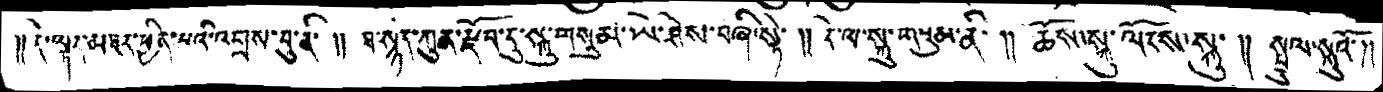།།དེ་ལྟར་མཐར་ཕྱིན་པའི་འབྲས་བུ་ནི་།།  ཐ་སྙད་ཀུན་རྫོབ་དུ་སྐུ་གསུམ་ཡེ་ཤེས་བཞི་སྟེ་།། དེ་ལ་སྐུ་གསུམ་ནི་།།  ཆོས་སྐུ་ལོངས་སྐུ་།། སྤྲུལ་སྐུའོ།།
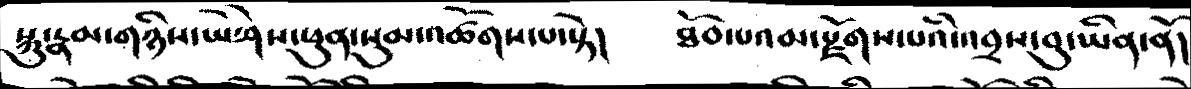སྐུ་རྣམ་གཉིས་ཡེ་ཤེས་ཕུན་སུམ་འཚོགས་པ་སྟེ།   ཐོབ་པའམ་རྫོགས་པའི་འབྲས་བུ་ཡིན་ནོ།
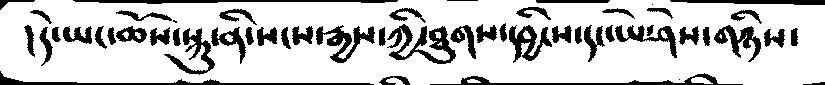།དེ་ཡང་ཆོས་སྐུ་ནི་སངས་རྒྱས་ཀྱི་ཐུགས་དབྱིངས་དང་ཡེ་ཤེས་གཉིས་
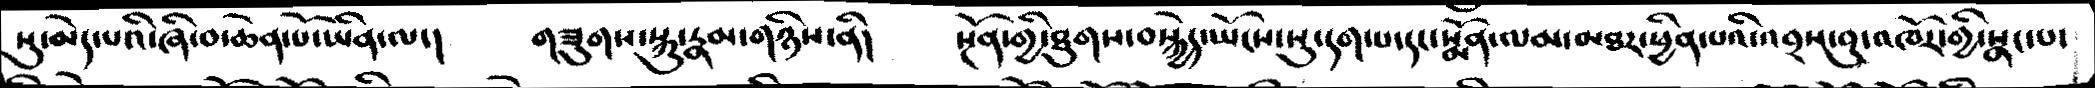སུ་མེད་པའི་ཞི་བ་ཆེན་པོ་ཡིན་ལ་།   གཟུགས་སྐུ་རྣམ་གཉིས་ནི།   སྔོན་གྱི་ཐུགས་བསྐྱེད་ཡོངས་སུ་དག་པ་དང་སྨོན་ལམ་མཐར་ཕྱིན་པའི་འབྲས་བུ་འཁོར་གྱི་སྣང་པ་
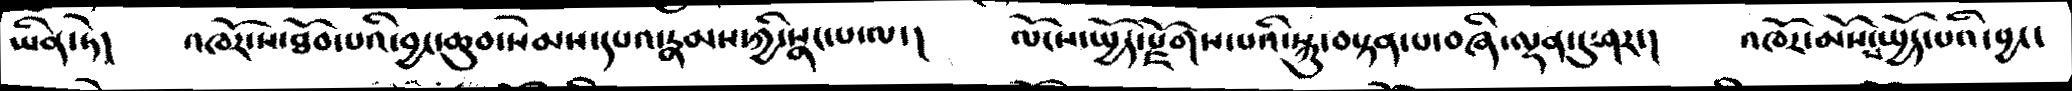ཡིན་ཏེ།   འཁོར་ས་ཐོབ་པའི་བྱང་ཆུབ་སེམས་དཔའ་རྣམས་ཀྱི་སྣང་པ་ལ་།   ལོངས་སྤྱོད་རྫོགས་པའི་སྐུ་བསྟན་པ་བཞི་ལྡན་དུ་ཤར་།   འཁོར་མོས་པ་སྤྱོད་པའི་བྱང་
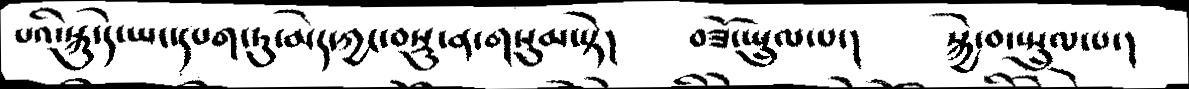པའི་སྐུ་དེ་ཡང་དཔག་ཏུ་མེད་ཀྱང་བསྡུ་ན་གསུམ་སྟེ།   བཟོ་སྤྲུལ་པ་།   སྐྱེ་བ་སྤྲུལ་པ་།
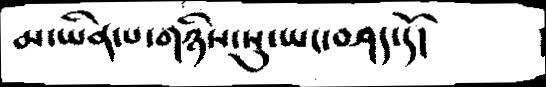མ་ཡིན་པ་གཉིས་སུ་ཡང་བཤད་དོ།
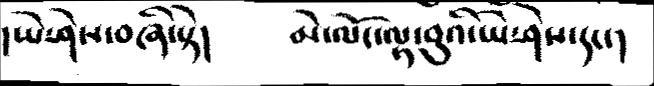།ཡེ་ཤེས་བཞི་སྟེ།   མེ་ལོང་ལྟ་བུའི་ཡེ་ཤེས་དང་།
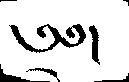༄༅།
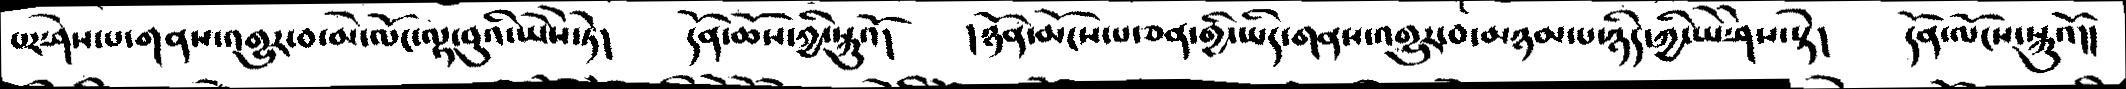པར་ཤེས་པ་གནས་འགྱུར་བ་མེ་ལོང་ལྟ་བུའི་ཡཻས་ཏེ།   དོན་ཆོས་ཀྱི་སྐུའོ།   །ཉོན་མོངས་པ་ཅན་གྱི་ཡིད་གནས་འགྱུར་བ་མཉམ་པ་ཉིད་ཀྱི་ཡེ་ཤེས་སྟེ།   དོན་ལོངས་སྐུའོ།།
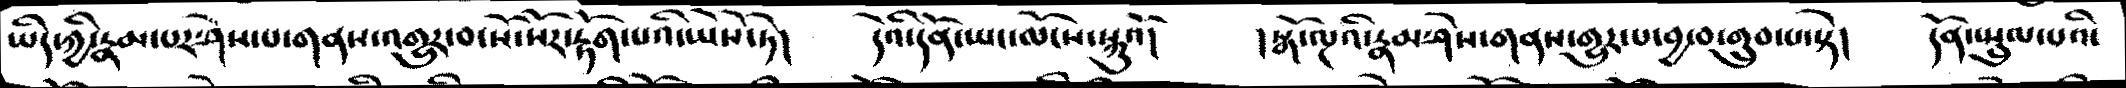ཡིད་ཀྱི་རྣམ་པར་ཤེས་པ་གནས་འགྱུར་བ་སོ་སོར་རྟོག་པའི་ཡཻས་ཏེ།    དེའི་དོན་ཡང་ལོངས་སྐུའོ།   །སྒོ་ལྔའི་རྣམ་ཤེས་གནས་གྱུར་པ་བྱ་བ་གྲུབ་པ་སྟེ།   དོན་སྤྲུལ་པའི་
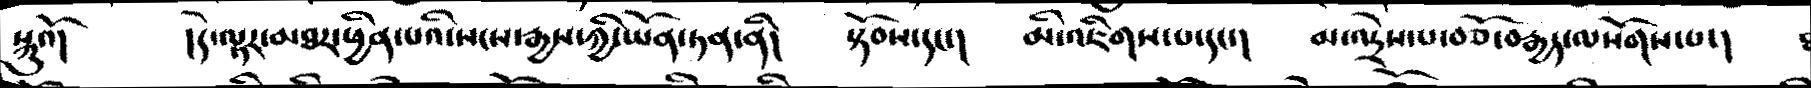སྐུའོ།    །དེ་ལྟར་མཐར་ཕྱིན་པའི་སངས་རྒྱས་ཀྱི་ཡོན་ཏན་ནི།   སྟོབས་དང་།   མི་འཇིགས་པ་དང་།   མ་འདྲེས་པ་བཅོ་བརྒྱད་ལསོགས་པ་།
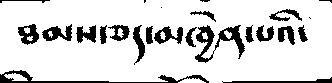ཐམས་ཅད་མཁྱེན་པའི་
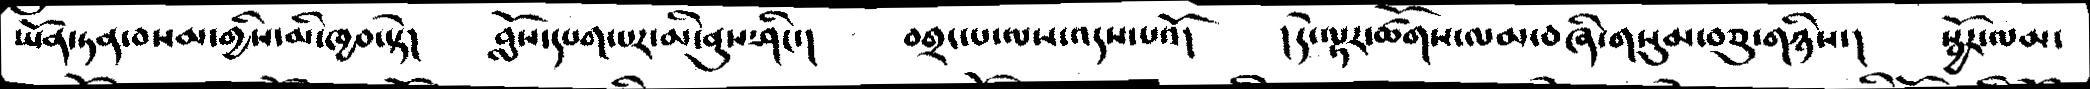ཡོན་ཏན་བསམ་གྱིས་མི་ཁྱབ་སྟེ།   བློས་དཔག་པར་མི་ནུས་ཤིང་།   བགྲང་པ་ལས་འདས་པའོ།   །དེ་ལྟར་ཚོགས་ལམ་བཞི་གསུམ་བཅུ་གཉིས་།   སྦྱོར་ལམ་
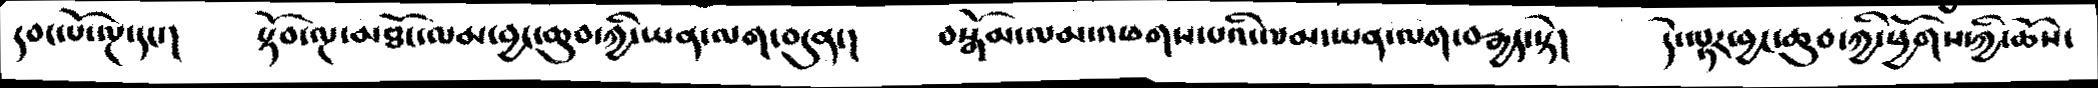དབང་པོ་ལྔ་དང་།   སྟོབ་ལྔ་མཐོང་ལམ་བྱང་ཆུབ་ཀྱི་ཡན་ལག་བདུན་།   བསྒོམ་ལམ་འཕགས་པའི་ལམ་ཡན་ལག་བརྒྱད་སྟེ་།   དེ་ལྡར་བྱང་ཆུབ་ཀྱི་ཕྱོགས་ཀྱི་ཆོས་
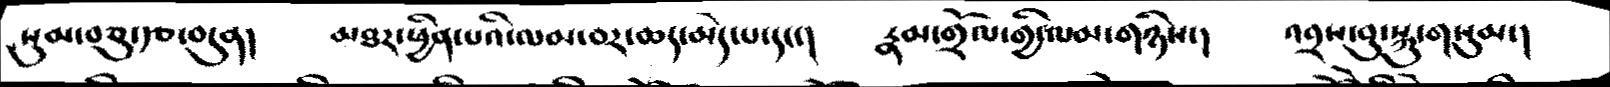སུམ་བཅུ་རྩ་བདུན།     མཐར་ཕྱིན་པའི་ལམ་བར་ཆད་མེད་པ་དང་།    རྣམ་གྲོལ་གྱི་ལམ་གཉིས་།    འབྲས་བུ་སྐུ་གསུམ་།
